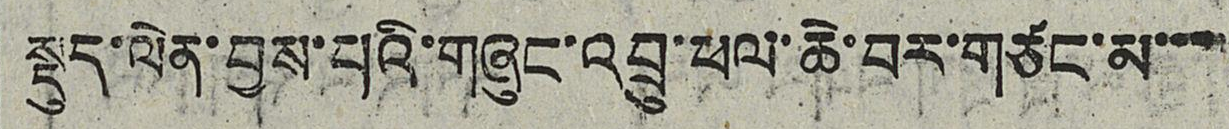སྡུད་ལེན་བྱས་པའི་གཞུང་འབྲུ་ཕལ་ཆེ་བར་གཙང་མ་་་་
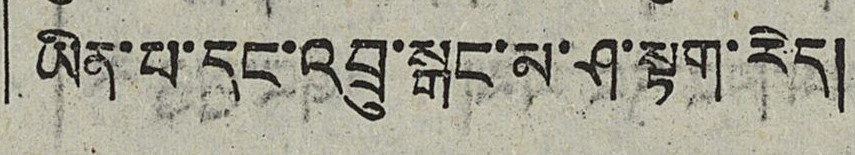ཡིན་པ་དང་འབྲུ་སྒང་མ་ཤ་སྟག་རེད།
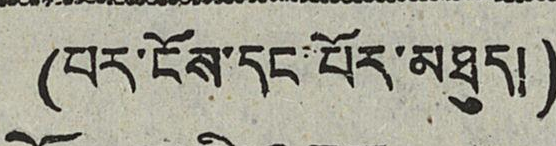(པར་ངོས་དང་པོར་མཐུད།)
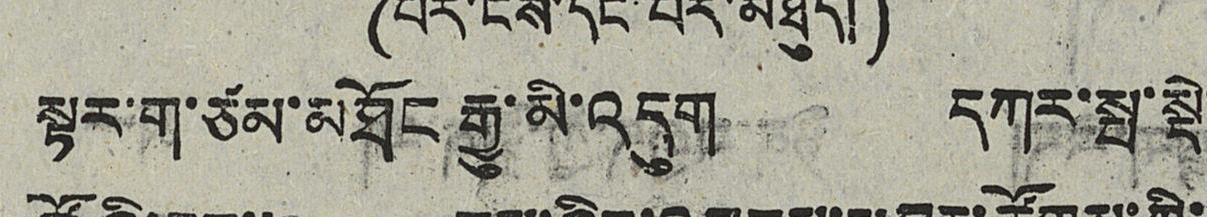སྟར་ག་ཙམ་མཐོང རྒྱུ་མི་འདུག དཀར་སྤ་སྡེ་
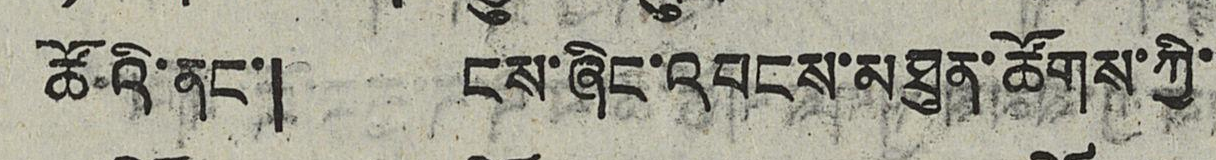ཚོའི་ནང་། ངས་ཞིང་འབངས་མཐུན་ཚོགས་ཀྱི་་
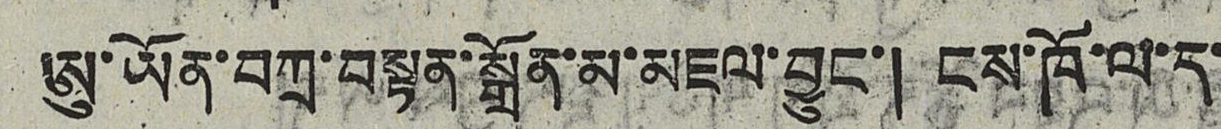ཨུ་ཡོན་བཀྲ་བསྟན་སྒྲོན་མ་མཇལ་བྱུང་། ངས་ཁོ་ལ་ད་
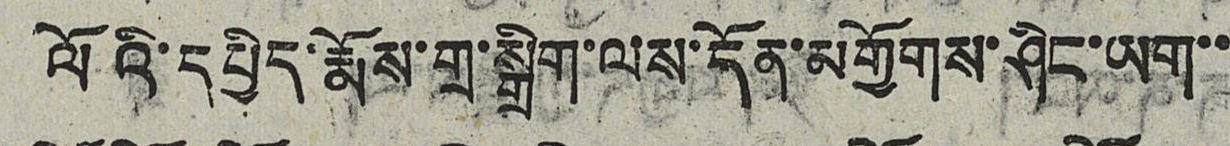ལོའི་དཔྱིད་རྨོས་གྲ་སྒྲིག་ལས་དོན་མགྱོགས་ཤིང་ཡག་
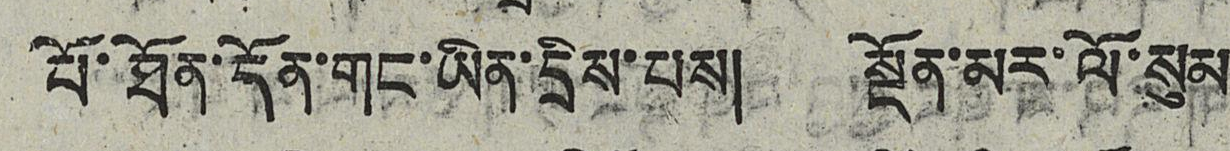པོ་ཐོན་དོན་གང་ཡིན་དྲིས་པས། སྔོན་མར་ལོ་སུམ
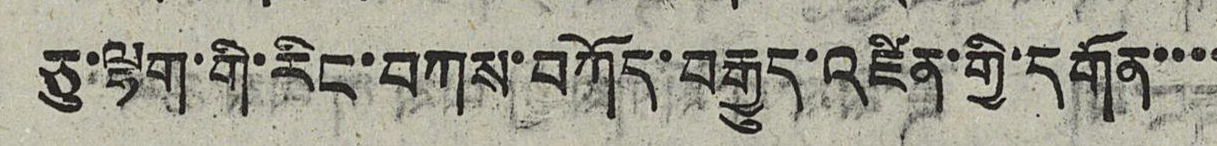ཅུ་ལྷག་གི་རིང་བཀས་བཀོད་བརྒྱུད་འཛིན་གྱི་དགན་་་་
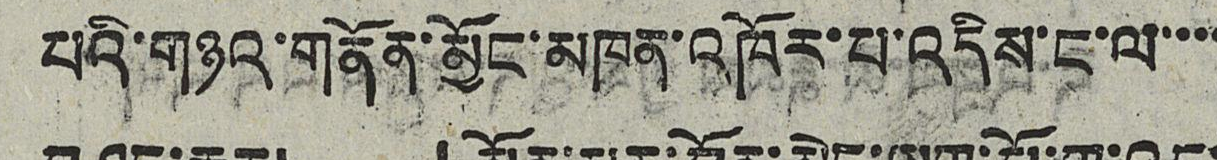པའི་གཉའ་གནོན་མྱོང་མཁན་འཁོར་པ་འདིས་ང་ལ་་་་
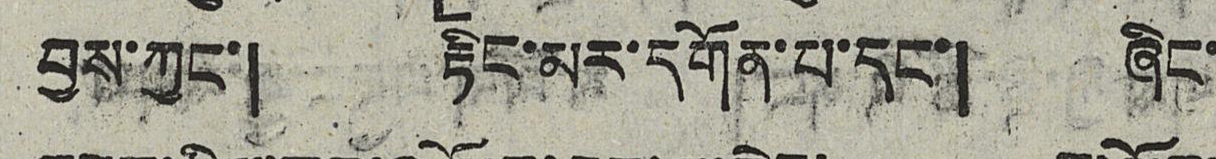བྱས་ཀྱང་། རྟིང་མར་དགོན་པ་དང་། ཞིང་
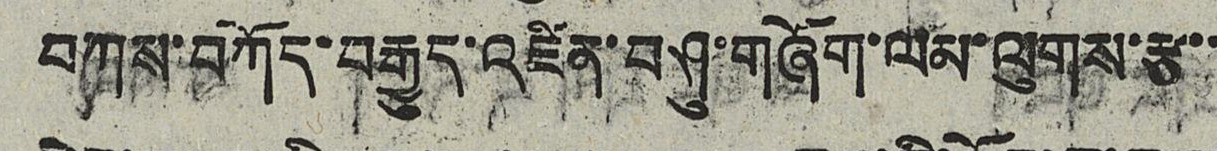བཀས་བཀོད་བརྒྱུད་འཛིན་བཤུ་གཞོག་ལམ་ལུགས་རྩ་་
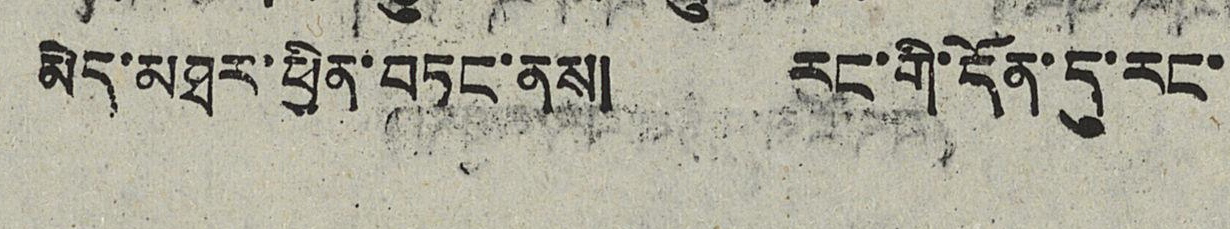མེད་མཐར་ཕྱིན་བཏང་ནས། རང་གི་དོན་དུ་རང་
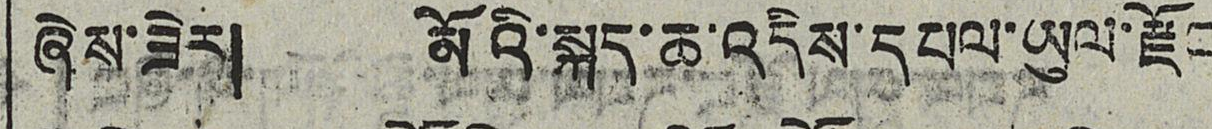ཞེས་ཟེར། མོའི་སྐད་ཆ་འདིས་དཔལ་ཡུལ་རྫོང
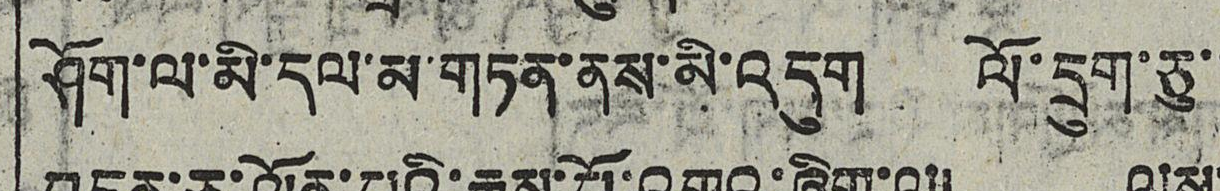ཤོག་ལ་མི་དལ་མ་གཏན་ནས་མི་འདུག ལོ་དྲུག་ཅུ་
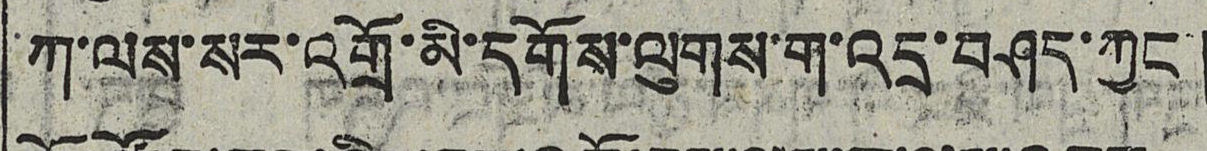ཀ་ལས་སར་འགྲོ་མི་དགོས་ལུགས་ག་འདྲ་བཤད་ཀྱང་།
